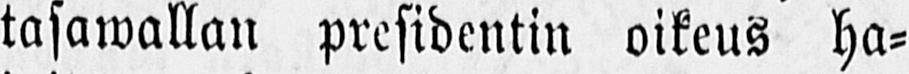tasawallan presidentin oikeus ha-
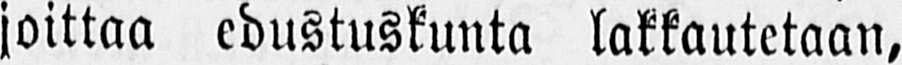joittaa edustuskunta lakkautetaan,
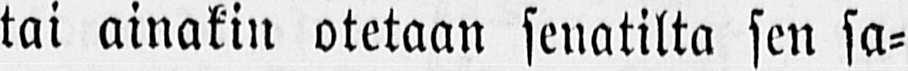tai ainakin otetaan senatilta sen sa-
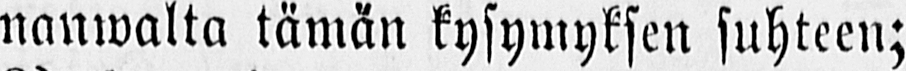nanwalta tämän kysymyksen suhteen;
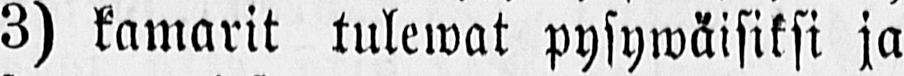3) kamarit tulewat pysywäisiksi ja
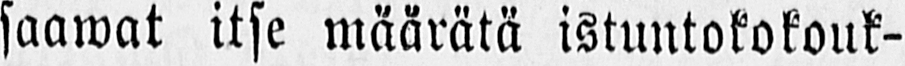saawat itse määrätä istuntokokouk-
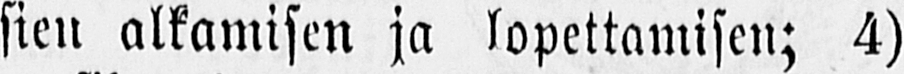sien alkamisen ja lopettamisen; 4)
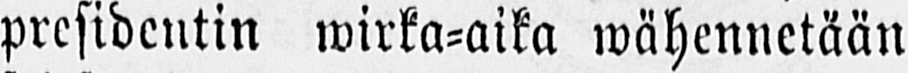presidentin wirka-aika wähennetään
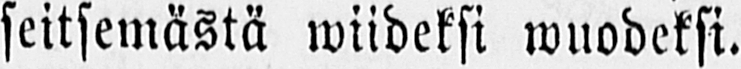seitsemästä wiideksi wuodeksi.
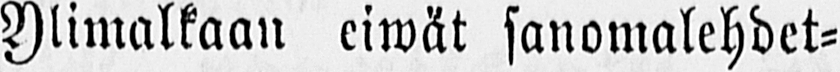Ylimalkaan eiwät sanomalehdet-
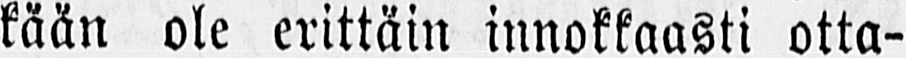kään ole erittäin innokkaasti otta-
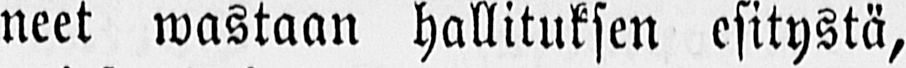neet wastaan hallituksen esitystä,
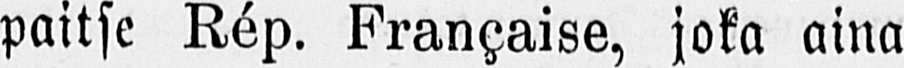paitse Rép. Française, joka aina
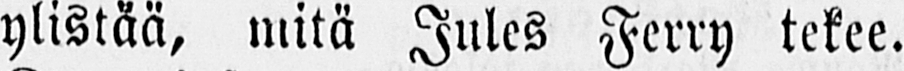ylistää, mitä Jules Ferry tekee.
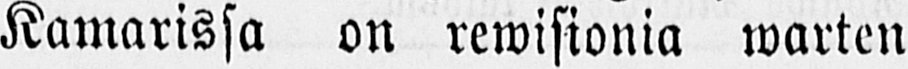Kamarissa on rewisionia warten
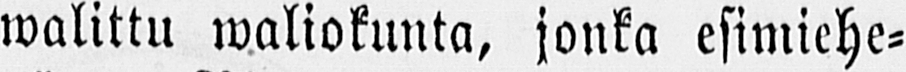walittu waliokunta, jonka esimiehe-
